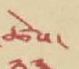ཚེས་
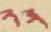༢༣
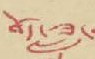བོད་ཟླ་
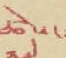ཚེས་
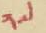༢༧
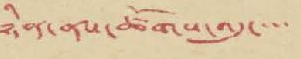ཉིན་ནས་ཚོགས་འདུ་་་་
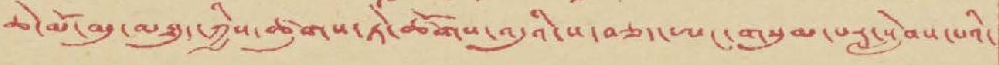ཆེ་མོ་མུ་མཐུད་ཀྱིས་ཚུགས་ཏེ་ཚོགས་འདུའི་ས་བཅད་ཨང་གསུམ་པར་སླེབས་པའི་
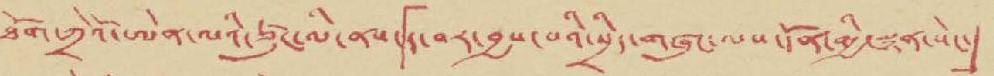ཐོག་ཀྲེའོ་ཨེན་ལའི་ཙུང་ལི་ནས་「ད་བར་བྱས་པའི་སྲིད་གཞུང་ལས་དོན་གྱི་སྙན་སེང་」
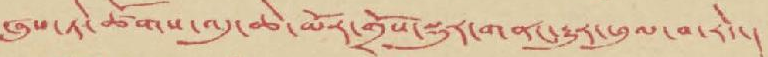ཞུས་ཏེ་ཚོགས་འདུ་ཆེ་མོར་གྲོས་སྡུར་གནང་རྒྱུར་ཕུལ་བ་རེད་།
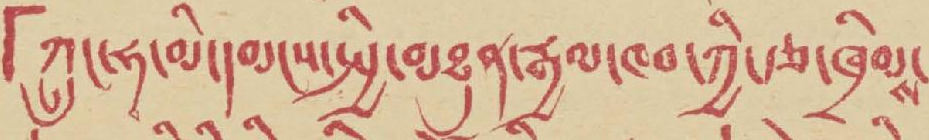「ཀྲུང་ཧྭ་མི་དམངས་སྤྱི་མཐུན་རྒྱལ་ཁབ་ཀྱི་རྩ་ཁྲིམས་
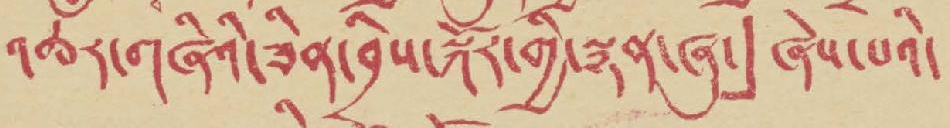འཆར་གཞིའི་ཟིན་བྲིས་སྐོར་གྱི་སྙན་ཞུ་」ཞེས་པའི་
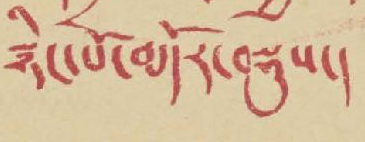སྙིང་པོ་མདོར་བསྡུས་།
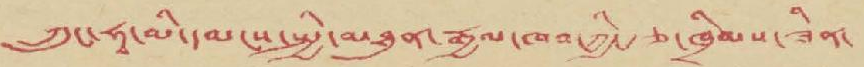ཀྲུང་ཧྭ་མི་དམངས་སྤྱི་མཐུན་རྒྱལ་ཁབ་ཀྱི་རྩ་ཁྲིམས་ཟིན་
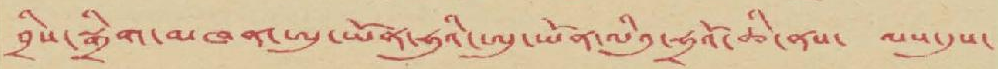བྲིས་སྒྲིག་མཁན་ཨུ་ཡོན་ཧུའི་ཨུ་ཡོན་ལིའུ་ཧྲའོ་ཆི་ནས་ ལས་དུས་
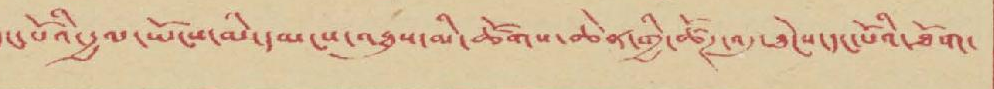དང་པོའི་རྒྱལ་ཡོངས་མི་དམངས་འཐུས་མི་ཚོགས་ཆེན་གྱི་ཚོཊ་འདུ་ཐེངས་དང་པོའི་ཐོག་
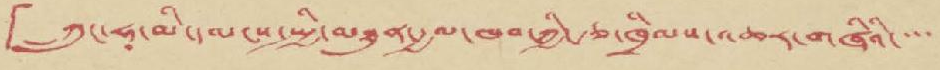「ཀྲུང་ཧྭ་མི་དམངས་སྤྱི་མཐུན་རྒྱལ་ཁབ་ཀྱི་རྩ་ཁྲིམས་འཆར་གཞིའི་་་་
